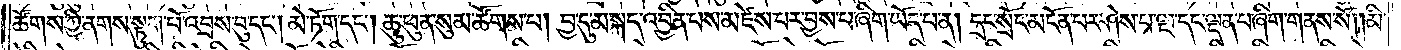ཚོགས་ཀྱི་ནགས་སྟུག་པོ་འབྲས་བུ་དང༌། མེ་ཏོག་དང༌། ཆུ་ཕུན་སུམ་ཚོགས་པ། བྱ་དུ་མ་སྐད་འབྱིན་པས་མཛེས་པར་བྱས་པ་ཞིག་ཡོད་པ་ན། དྲང་སྲོང་མངོན་པར་ཤེས་པ་ལྔ་དང་ལྡན་པ་ཞིག་གནས་སོ། །མི་
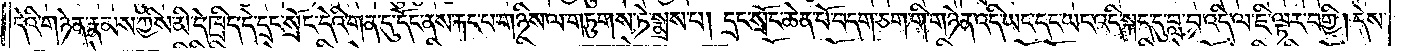དེའི་གཉེན་རྣམས་ཀྱིས་མི་དེ་ཁྲིད་དེ་དྲང་སྲོང་དེའི་གན་དུ་དོང་ནས་རྐང་པ་གཉིས་ལ་གཏུགས་ཏེ་སྨྲས་པ། དྲང་སྲོང་ཆེན་པོ་བདག་ཅག་གི་གཉེན་འདི་ཡང་དང་ཡང་འདི་སྐད་དུ་བླ་བ་འདི་ལ་ཇི་ལྟར་བགྱི། དེས་
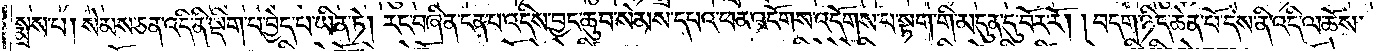སྨྲས་པ། སེམས་ཅན་འདི་ནི་སྡིག་པ་བྱེད་པ་ཡིན་ཏེ། རང་བཞིན་ངན་པ་འདིས་བྱང་ཆུབ་སེམས་དཔའ་ཕན་འདོགས་འདོགས་པ་སྟག་གི་མདུན་དུ་བོར་རོ། །བདག་ཉིད་ཆེན་པོ་དེས་ནི་འདི་ལ་ཆོས་
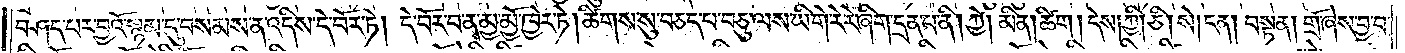བཤད་པར་བྱའོ་སྙམ་དུ་བསམས་ན་འདིས་དེ་བོར་ཏེ། དེ་བོར་བ་ན་མྱ་མྱོ་ཁྱེར་ཏེ། ཚིགས་སུ་བཅད་པ་བཅུ་ལས་ཡི་གེ་རེ་རེ་ཤིག་དྲན་པ་ནི། ཀྱེ། མིན། ཚིག །དེས། ཀྱི། ཅི། སེ། ང༌། བསྟེན། གྲོ་ཞེས་བྱ་བ་
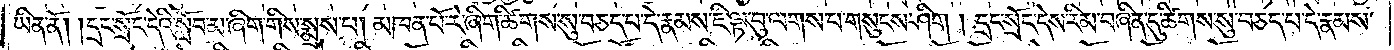ཡིན་ནོ། །དྲང་སྲོང་དེའི་སློབ་མ་ཞིག་གིས་སྨྲས་པ། མཁན་པོ་རེ་ཞིག་ཚིགས་སུ་བཅད་པ་དེ་རྣམས་ཇི་ལྟ་བུ་ལགས་པ་གསུངས་ཤིག །དྲང་སྲོང་དེས་རིམ་བཞིན་དུ་ཚིགས་སུ་བཅད་པ་དེ་རྣམས་
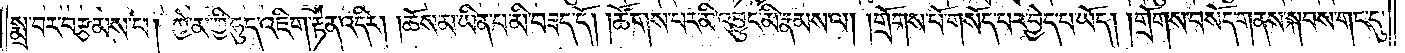སྨྲ་བར་བརྩམས་པ། ཀྱེ་མ་ཀྱི་ཧུད་འཇིག་རྟེན་འདིར། །ཆོས་མ་ཡིན་པ་མི་བཟད་དོ། །ཚོགས་པར་མི་འབྱུང་མི་རྣམས་ལ། །གྲོགས་པོ་གསོད་པར་བྱེད་པ་ཡོད། །གྲོགས་བསོད་གནས་སྐབས་གང་དུ་
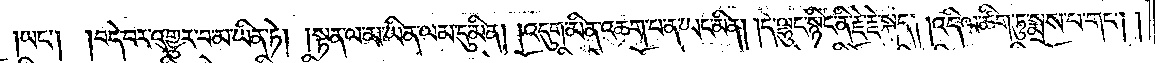ཡང༌། །བདེ་བར་འགྱུར་བ་མ་ཡིན་ཏེ། །སྟན་ལ་མ་ཡིན་ལམ་དུ་མིན། །འདུག་མིན་འཆག་པ་ན་ཡང་མིན། །དེ་ལྷུང་སྙིང་ནི་རྗེ་རྗེ་སྐད། །འདི་ལ་ཚིག་ཏུ་སྨྲས་པ་གང༌། །
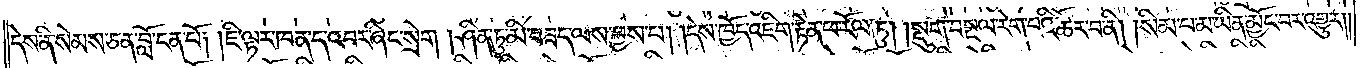དེས་ནི་སེམས་ཅན་བློ་ངན་པོ། །ཇི་ལྟར་ཁན་ད་འབར་ཞིང་སྲེག། ཤིན་ཏུ་མི་བཟད་ལས་བྱས་པ། །དེས་ཁྱོད་འཇིག་རྟེན་ཕ་རོལ་ཏུ། །སྡུག་བསྔལ་རེག་པའི་ཚོར་བ་ནི། །སིམ་པ་མ་ཡིན་མྱོང་བར་འགྱུར། །
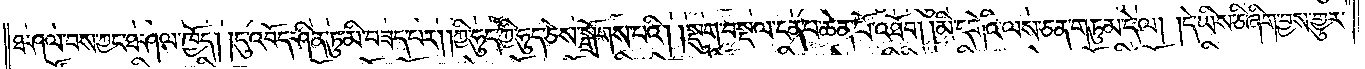ཐ་ཤལ་བས་ཐ་ཤལ་ཁྱོད། །དུ་འབོད་ཤིན་ཏུ་མི་བཟད་པར། །ཀྱི་ཧུད་ཀྱི་ཧུད་ཅེས་སྒྲོགས་པའི། །སྡུག་བསྔལ་ངན་པ་ཆེན་པོ་འཐོབ། །མི་དགེའི་ལས་ཅན་གཏུམ་དེ་ལ། །དེ་ཡིས་ཅི་ཞིག་བྱས་གྱུར་
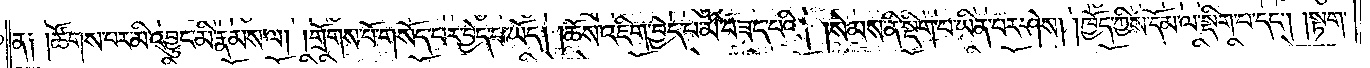ན༑ ༑ཚོགས་པར་མི་འབྱུང་མི་རྣམས་ལ། །གྲོགས་པོ་གསོད་པར་བྱེད་པ་ཡོད། །ཆོས་འཇིག་བྱེད་པ་མི་བཟད་པའི། །སེམས་ནི་སྡིག་པ་ཡིན་པར་ཤེས། །ཁྱོད་ཀྱིས་དོམ་ལ་སྡིག་པ་དང༌། །སྟག་
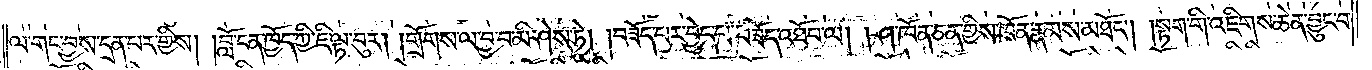ལ་གང་བྱས་དྲན་པར་གྱིས། །བློ་ངན་ཁྱོད་ཀྱི་ཇི་ལྟ་བུར། །གྲོགས་ལ་བྱ་བ་མི་ཤེས་ཏེ། །བཟོད་པར་བྱེད་པ་བཟོད་འཐོབ་ལ། །ཤ་ཁོན་ཅན་གྱིས་ཁོན་རྣམས་མཐོང༌། །སྟག་གི་འཇིགས་ཆེན་བྱུང་བ་
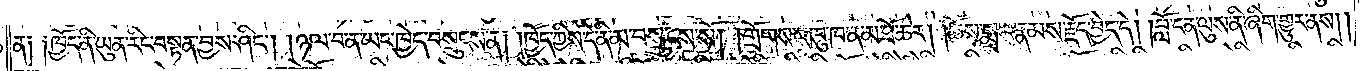ན། །ཁྱོད་ནི་ཡུན་རིང་བསྟེན་བྱས་ཤིང༌། །ཉལ་བ་ན་ཡང་ཁྱོད་བསྲུངས་ན། །ཁྱོད་ཀྱིས་དེ་ནི་མ་བསྲུངས་སོ། །གྲོགས་འཁུ་ཁ་ན་མ་ཐོ་ཆེར། །ཆོས་སྨྲ་བ་རྣམས་རྗོད་བྱེད་དེ། །བློ་ངན་ལུས་ནི་ཞིག་གྱུར་ནས། །
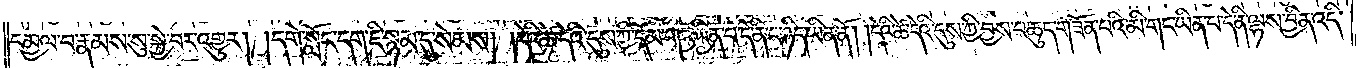དམྱལ་བ་རྣམས་སུ་སྐྱེ་བར་འགྱུར། །དགེ་སློང་དག་ཇི་སྙམ་དུ་སེམས། །དེའི་ཚེ་དེའི་དུས་ཀྱི་དོམ་གང་ཡིན་པ་དེ་ནི་ང་ཉིད་ཡིན་ནོ། །དེའི་ཚེ་དེའི་དུས་ཀྱི་བྱས་པ་ཆུད་གཟོན་པའི་མི་གང་ཡིན་པ་དེ་ནི་ལྷས་བྱིན་འདི་
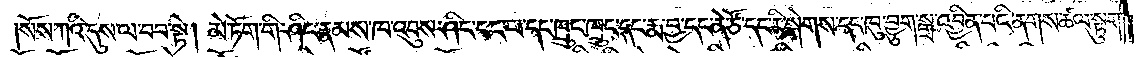སོས་ཀའི་དུས་ལ་བབ་སྟེ། མེ་ཏོག་གི་ཤིང་རྣམས་ཁ་འབུས་ཤིང་ངང་པ་དང་ཁྲུང་ཁྲུང་དང་རྨ་བྱ་དང་ནེ་ཙོ་དང་རི་སྐེགས་དང་ཁུ་བྱུག་སྒྲ་འབྱིན་པའི་ནགས་ཚལ་སྟུག་
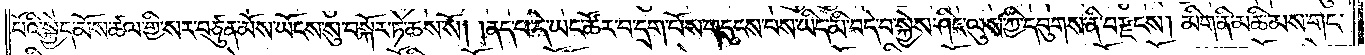པོའི་སྐྱེད་མོས་ཚལ་གྱི་སར་བཙུན་མོས་ཡོངས་སུ་བསྐོར་ཏེ་ཆས་སོ། །ནད་པ་དེ་ཡང་ཚོར་བ་དྲག་པོས་གདུངས་པས་ཡིད་མི་བདེ་བ་སྐྱེས་ཤིང་ལུས་ཀྱི་དབུགས་ནི་བརྫངས། མིག་ནི་མཆི་མས་གང་
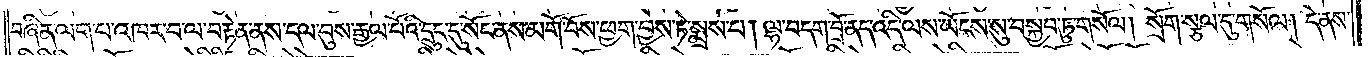བཞིན་ལག་པ་འཁར་བ་ལ་བརྟེན་ནས་དལ་བུས་རྒྱལ་པོའི་དྲུང་དུ་སོང་ནས་མགོ་བོས་ཕྱག་བྱས་ཏེ་སྨྲས་པ། ལྷ་བདག་བྲོ་ནད་འདི་ལས་ཡོངས་སུ་བསྐྱབ་ཏུ་གསོལ། སྲོག་སྩལ་དུ་གསོལ། དེ་ནས་
